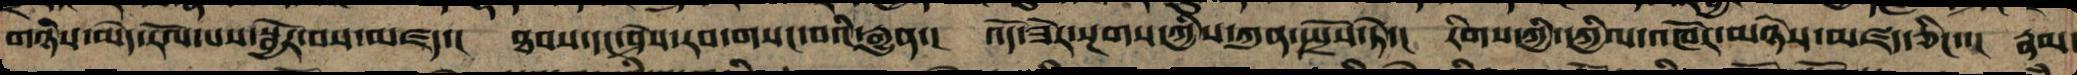གཉིས་མེད་རོལ་པའི་སྦྱོར་བས་མཛད་། ཐབས་དང་ཤེས་རབ་གསང་བའི་རྒྱུན་། འོད་ཟེར་སྔགས་ཀྱིས་ཀུན་སྤྲོས་ཏེ་། རིགས་ཀྱི་དཀྱིལ་འཁོར་མཉེས་མཛད་ཅིང་་། རྣམ་
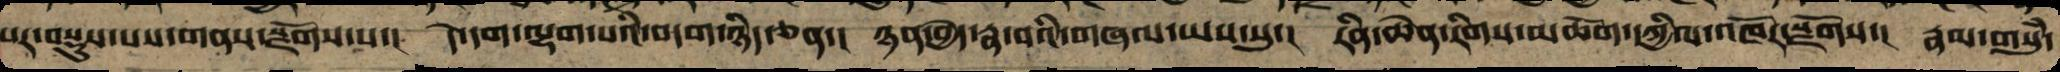པར་བསྡུས་པས་གནས་སྫོགས་པ་། དེ་དག་ལྷག་པའི་བདག་ཉིད་ཅན་། ཉན་བྱེད་རྣ་བའི་གཞལ་ཡས་སུ་། རིན་ཆེན་རིགས་མཆོག་དཀྱིལ་འཁོར་སྫོགས་། རྣམ་གསུཾ་
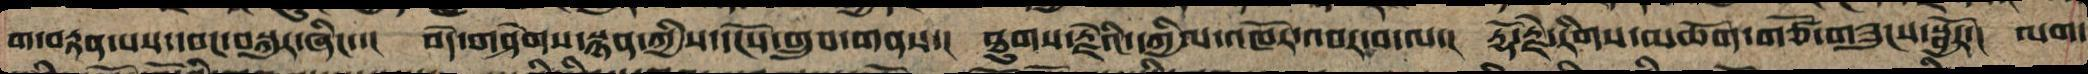ག་བརྟན་པས་དབང་བསྐུར་ཞིང་་།  བདེ་གཤེགས་སྙན་གྱིས་དངོས་གྲུབ་གནས་།  ཐུགས་རྗེའི་དཀྱིལ་འཁོར་འབར་བ་ལ་།  རྡོ་རྗེ་རིགས་མཆོག་གཙོ་གཟུངས་སྦྱོར་།  ལག་
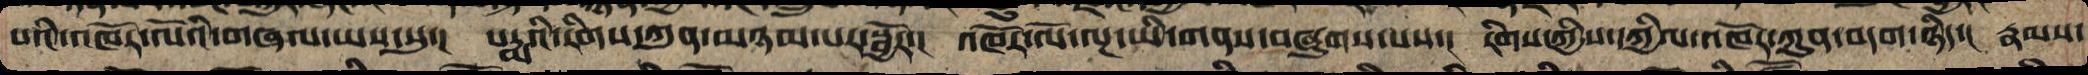པའི་འཁོར་ལོའི་གཞལ་ཡས་སུ་།  པདྨའི་རིགས་ཀུན་མཉམ་པར་སྦྱོར་།  འཁོར་ལོ་ལྔ་ཡི་གནས་བཞུགས་པས་།  རིགས་ཀྱིས་དཀྱིལ་འཁོར་ཀུན་བདག་ཉིད་།  རྣམས་
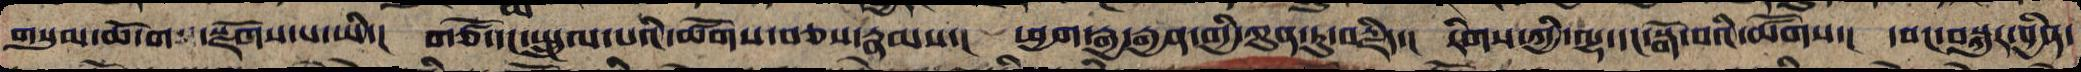གསུམ་ཆོ་ག་སྫོགས་པ་ཡི་།  གཙོ་དང་སྤྲུལ་པའི་ཚོགས་བཅས་རྣམས་།  ཕྱག་རྒྱ་རྒྱན་གྱི་ཀུན་ཏུ་བརྗིད་།  རིགས་ཀྱི་ལྷ་དང་སྒོ་བའི་ཚོགས་།  དབང་བསྐུར་བྱིན་
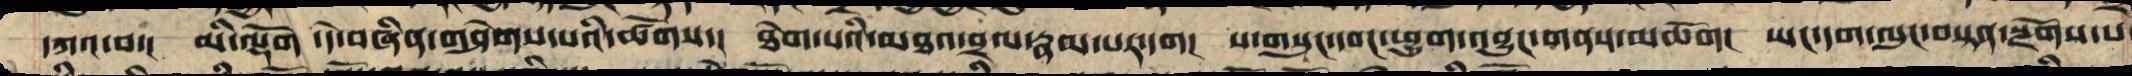དཀའ་བར་། མི་ལྡོག་དེ་བཞིན་གཤེགས་པའི་ཚོགས་། ཐེག་པའི་མཐའ་བྲལ་རྣམ་པར་དག། ས་གསུང་དབང་ཕྱུག་འབྱུང་གནས་མཆོག། ཡང་དག་ལུང་བསྟན་སྫོགས་པ
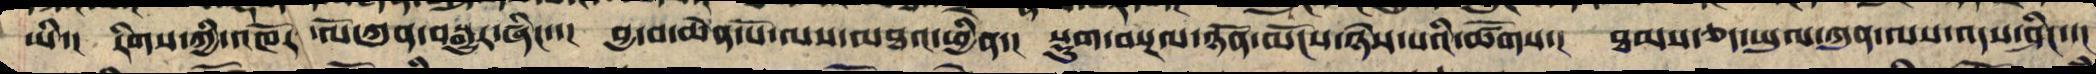ཡི་། རིགས་ཀྱི་འཁོར་ལོ་ཀུན་བསྒྱུར་ཞིང་་། བྱ་བ་ཆེན་པོ་ལས་མཐར་ཕྱིན་། སྡུག་བསྔལ་ཉོན་མོངས་ཉེས་པའི་ཚོགས་། ཐམས་ཅད་ཡུལ་ཀུན་ལས་འདས་ཤིང་་།
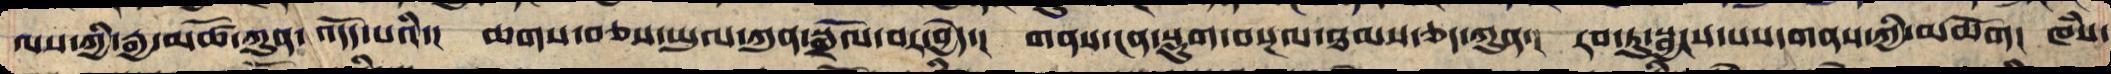ལས་ཀྱི་རྒྱ་མཚོ་ཀུན་འདོད་པའི་། ཆགས་བཅས་ཡུལ་ཀུན་སྒྲོལ་བར་བྱེད་། གནས་ངན་སྡུག་བསྔལ་ཐམས་ཅད་ཀུན་། རབ་ཏུ་སྦྱངས་པས་གནས་ཀྱི་མཆོག། ཁཾས་
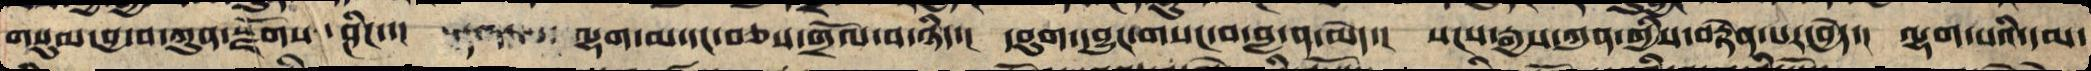གསུམ་བྱ་བ་ཀུན་སྫོགས ་ཤིང་་།    ལྷག་མ་དང་བཅས་གྲོལ་བ་ཉིད་། དབུགས་དབྱུང་གསང་བ་བླ་ན་མེད་། སངས་རྒྱས་ཀུན་གྱིས་བསྟན་པར་མཛད་། ལྷག་པའི་དམ་
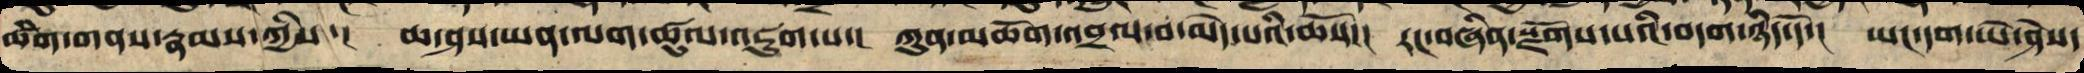ཚིག་གནས་རྣམས་ཀྱི་། ཆ་ཤས་ཡན་ལག་ཚུལ་འཇུག་པ་། ཀུན་མཆོག་འབྲེལ་བ་མེད་པའི་ཆོས་། རང་བཞིན་སྫོགས་པའི་བདག་ཉིད་དོ་། ཡང་དག་ཡེ་ཤེས་
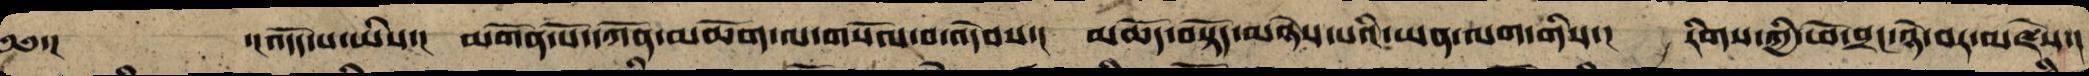༄༅་།    ་།འདོད་པ་ཡིས་། མགོན་པོ་དཀོན་མཆོག་ལ་གསོལ་བ་འདེབས་། མཆོད་བསྟོད་མཉེས་པའི་ཡན་ལག་གིས་། རིགས་ཀྱི་ཕོ་བྲང་ཉེ་བར་མཛེས་།
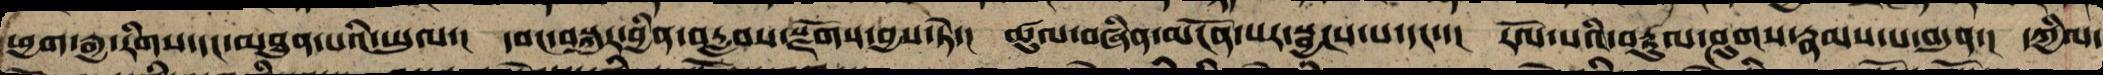ཕྱག་རྒྱ་རིགས་དང་མཐུན་པའི་ཡུམ་། དབང་བསྐུར་བྱིན་རླབས་སྫོགས་བྱས་ཏེ་། ཚུལ་བཞིན་མངོན་པར་སྦྱངས་པ་དང་་། རོལ་པའི་བརྟུལ་ཤུགས་རྣམ་པ་བདུན་། དཀྱིལ་
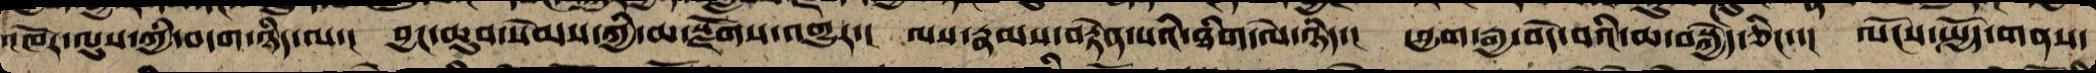འཁོར་ལུས་ཀྱི་བདག་ཉིད་ལ་། བྱང་ཆུབ་སེམས་ཀྱི་མ་སྫོགས་འགྱུར་། ལས་རྣམས་བརྟེན་པའི་ཐིག་ལེ་ཉིད་། ཕྱག་རྒྱ་བདེ་བའི་ཆ་བསྐྱེད་ཅིང་་། ལོངས་སྤྱོད་གནས་
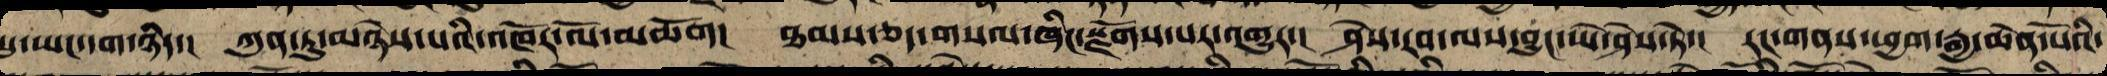སུ་ཡང་དག་ཉིད་། ཀུན་ཏུ་མཉེས་པའི་འཁོར་ལོ་མཆོག། ཐམས་ཅད་གསལ་ཞིང་སྫོགས་པར་འགྱུར་། ཤེས་རབ་ལས་བྱུང་ཡེ་ཤེས་ཏེ་། རང་གནས་ཕྱག་རྒྱ་ཆེན་པོའི་
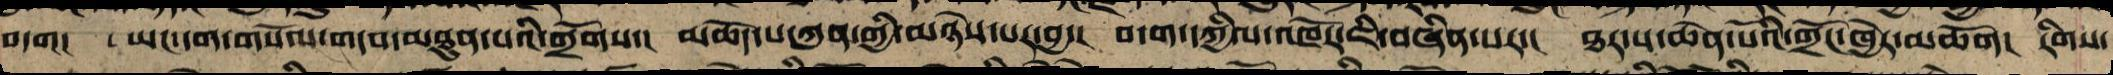བདག། ཡང་དག་གསོལ་གདབ་མཐུན་པའི་གྲོགས་། མཆོད་པ་ཀུན་གྱིས་མཉེས་པར་བྱ་། བ་ག་དཀྱིལ་འཁོར་ཇི་བཞིན་པར་། ཐར་པ་ཆེན་པོའི་གྲོང་ཁྱེར་མཆོག། རིགས་
